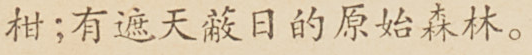柑；有遮天蔽日的原始森林。
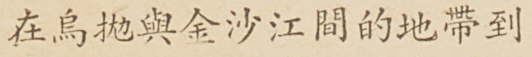在烏拋與金沙江間的地帶到
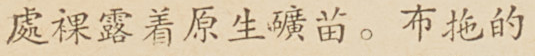處裸露着原生礦苗。布拖的
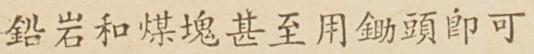鉛岩和煤塊甚至用鋤頭卽可
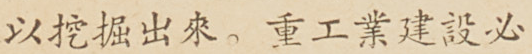以挖掘出來。重工業建設必
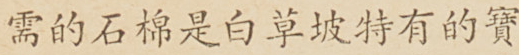需的石棉是白草坡特有的寶
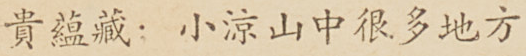貴蘊藏；小涼山中很多地方
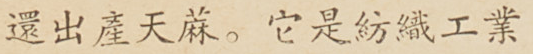海出產天蔴。它是紡織工業
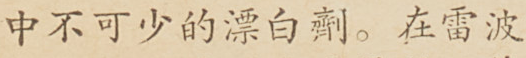中不可少的漂白劑。在雷波
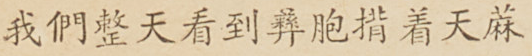我們整天看到彝胞揹着天蔴
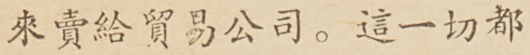來賣給貿易公司。這一切都
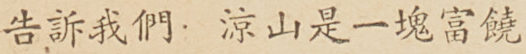告訴我們：涼山是一塊富饒
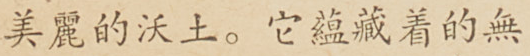美麗的沃土。它蘊藏着的無
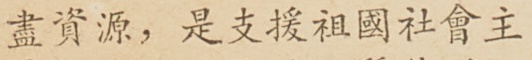盡資源，是支援祖國社會主
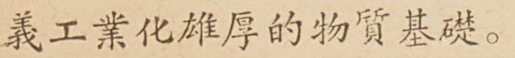義工業化雄厚的物質基礎。
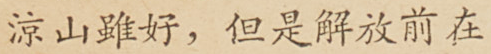涼山雖好，但是解放前在
